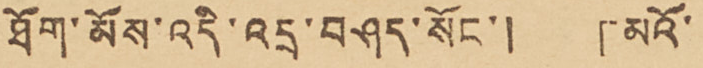ཐོག་མོས་འདི་འདྲ་བཤད་སོང་། 「མའོ་
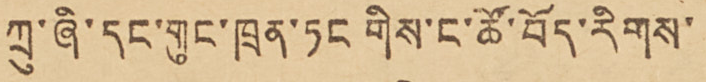ཀྲུ་ཞི་དང་གུང་ཁྲན་ཏང གིས་ང་ཚོ་བོད་རིགས་
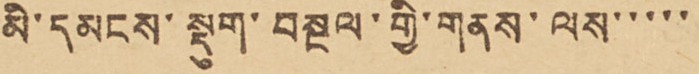མི་དམངས་སྡུག་བསྔལ་གྱི་གནས་ལས་་་་་
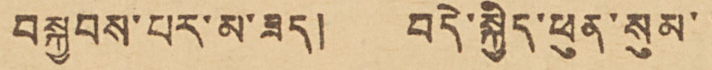བསྐྱབས་པར་མ་ཟད། བདེ་སྐྱིད་ཕུན་སུམ་
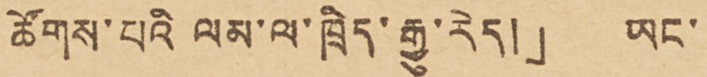ཚོགས་པའི ལམ་ལ་ཁྲིད་རྒྱུ་རེད།」 ཡང་
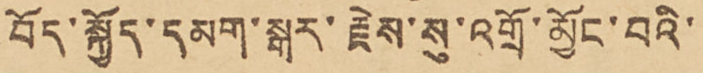བོད་སྐྱོད་དམག་སྒར་རྗེས་སུ་འགྲོ་མྱོང་བའི་
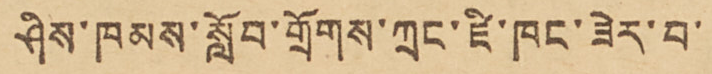ཤིས་ཁམས་སློབ་གྲོགས་ཀྲང་ཛི་ཁང་ཟེར་བ་
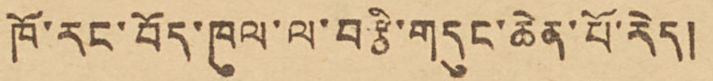ཁོ་རང་བོད་ཁུལ་ལ་བརྩི་གདུང་ཆེན་པོ་རེད།
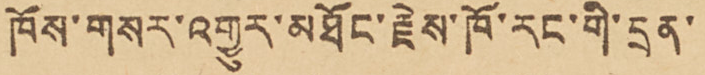ཁོས་གསར་འགྱུར་མཐོང་རྗེས་ཁོ་རང་གི་དྲན་
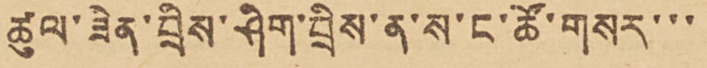ཚུལ་ཟིན་བྲིས་ཤིས་བྲིས་ན་ས་ང་ཚོ་གསར་་་
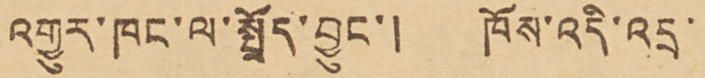འགྱུར་ཁང་ལ་སྤྲོད་བྱུང་། ཁོས་འདི་འདྲ་
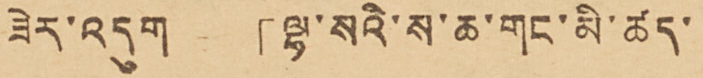ཟེར་འདུག 「ལྷ་སའི་ས་ཆ་གང་མི་ཚད་
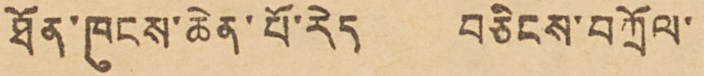ཐོན་ཁུངས་ཆེན་པོ་རེད བཅིངས་བཀྲོལ་
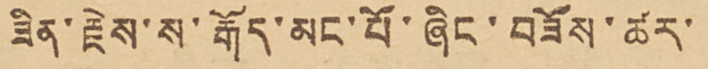ཟིན་རྗེས་ས་རྒོད་མང་པོ་ཞིང་བཟོས་ཚར་
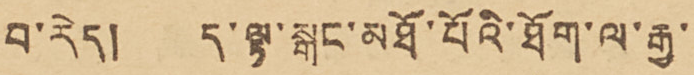བ་རེད། ད་ལྟ་སྒང་མཐོ་པོའི་ཐོག་ལ་རྒྱ་
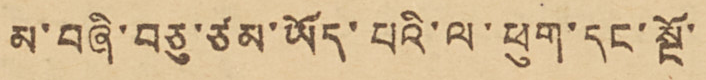མ་བཞི་བཅུ་ཙམ་ཡོད་པའི་ལ་ཕུག་དང་སྔོ་
